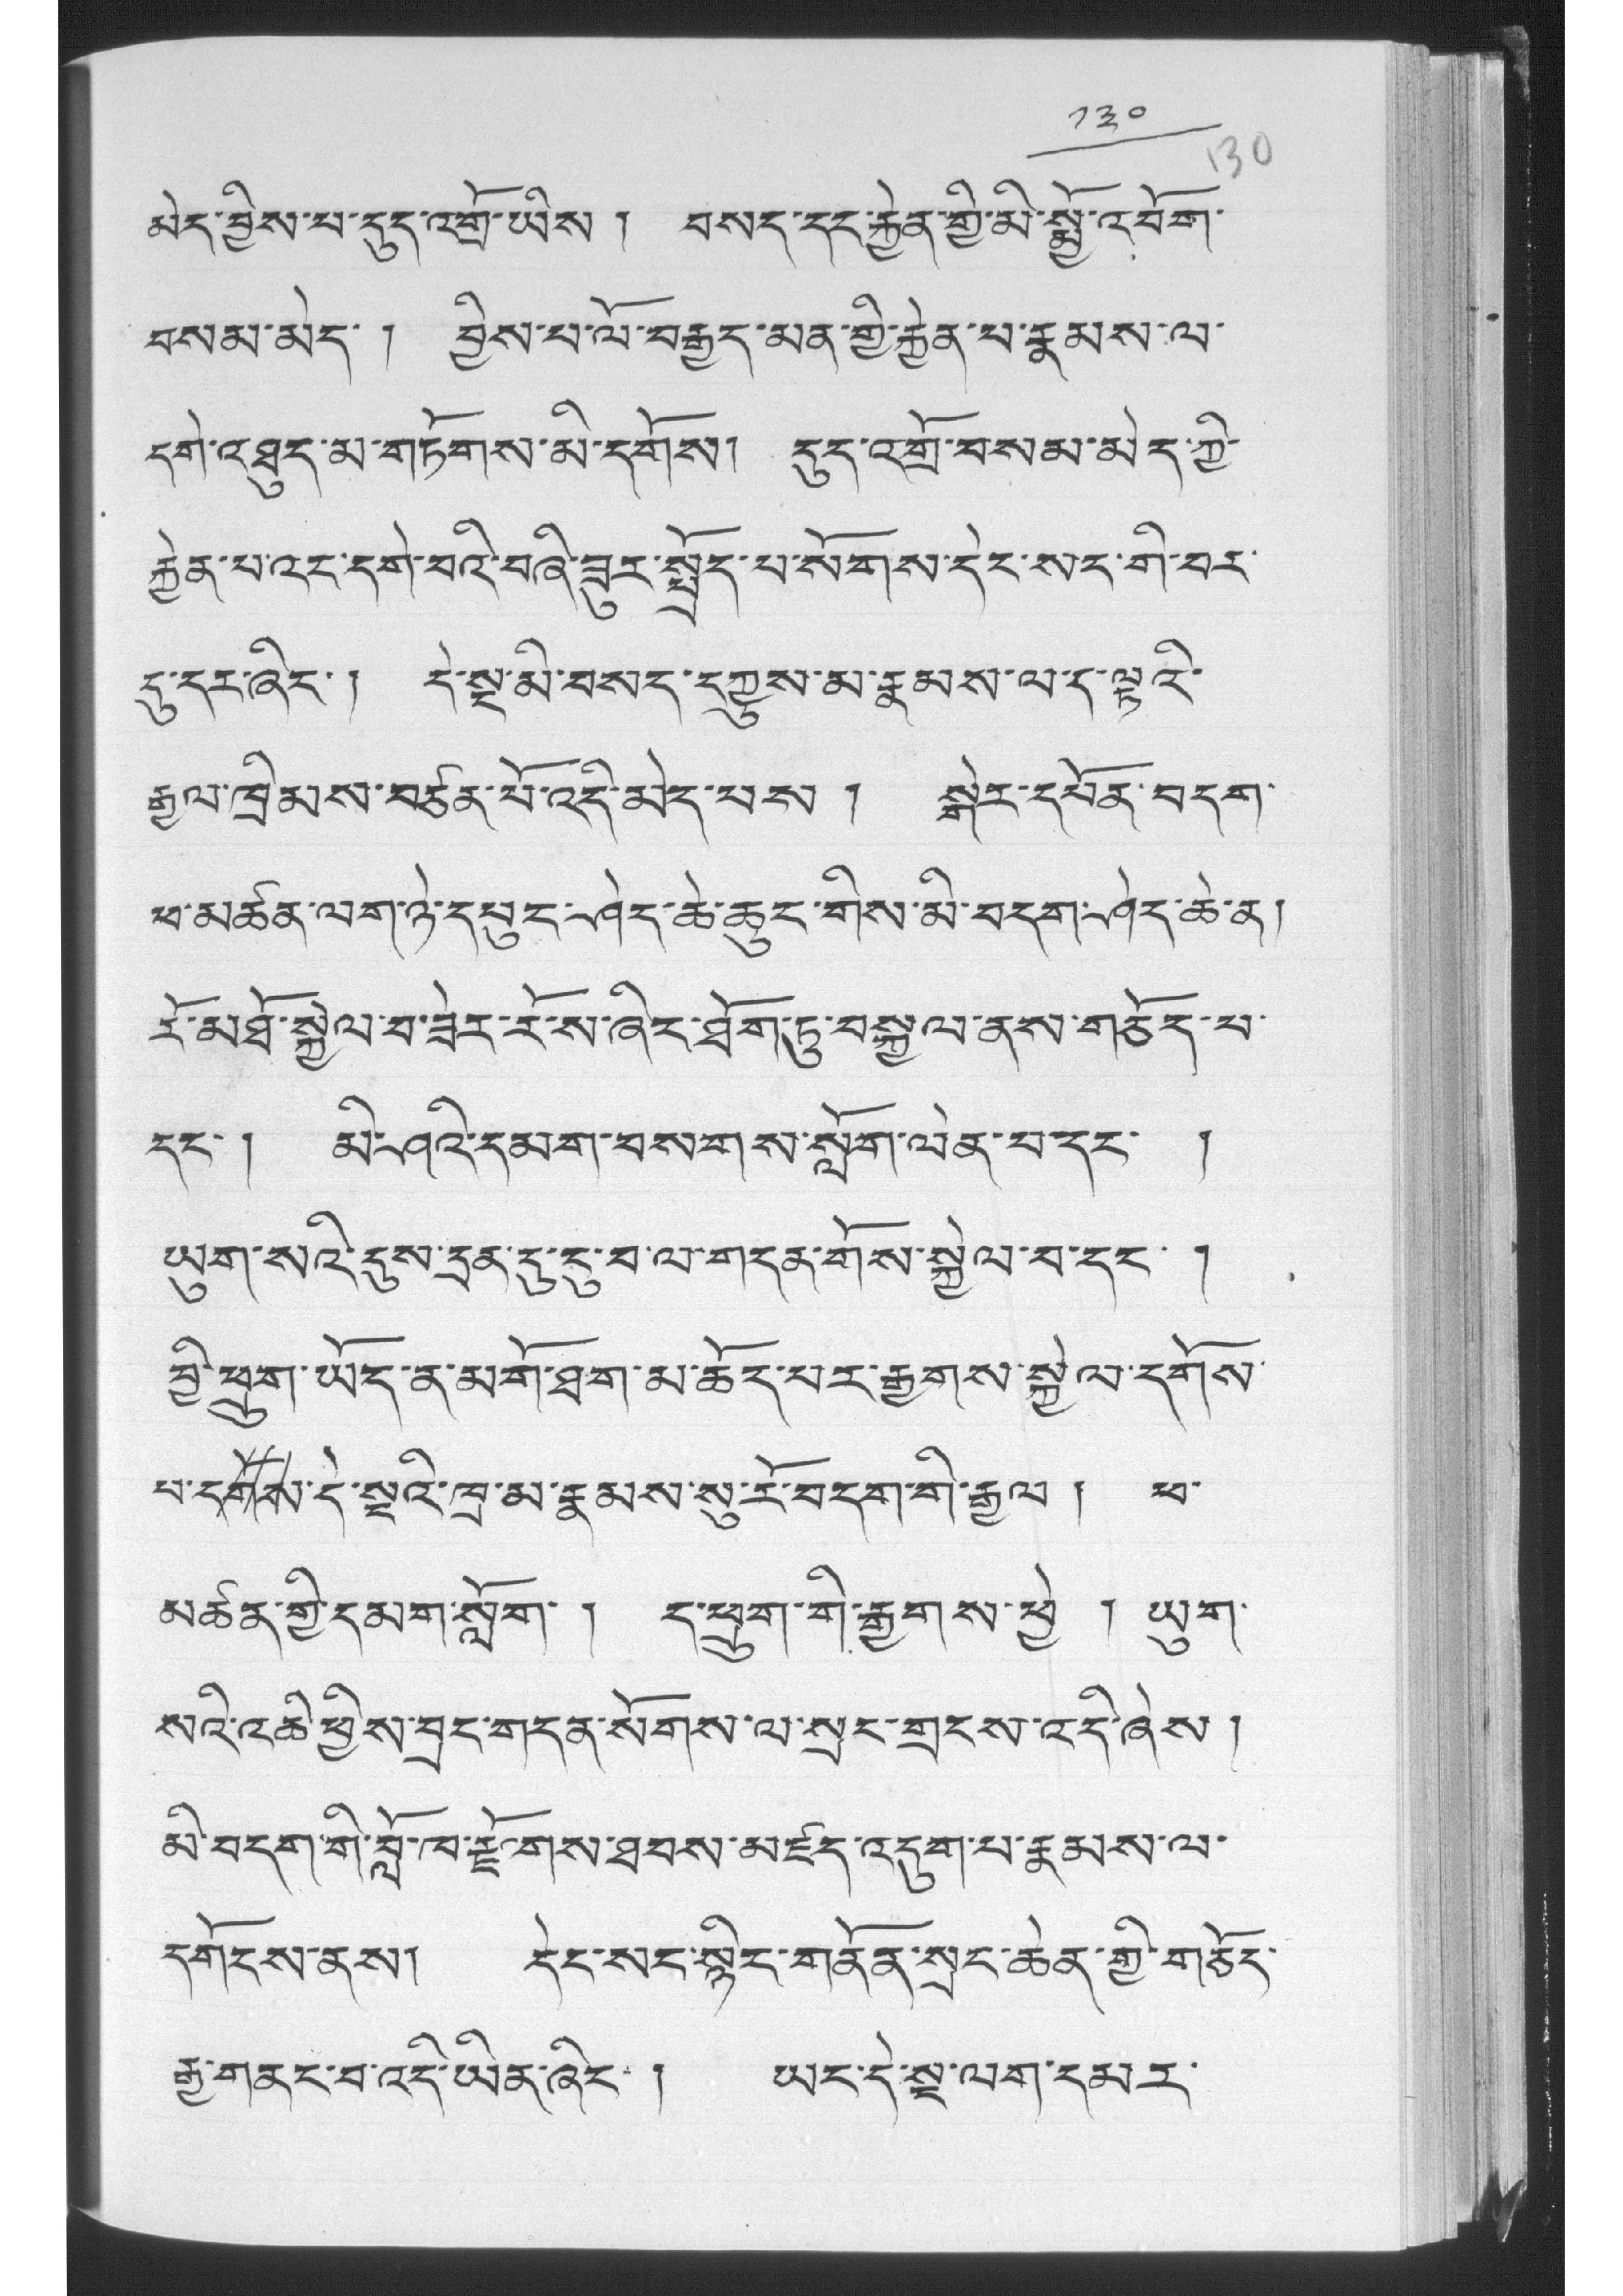༡༣༠
མེད་བྱིས་པ་དུད་འགྲོ་ཡིས ། བསད་དང་རྐྱེན་གྱི་མིསྨྱོ་འབོག་
བསམ་མེད་ ། བྱིས་པ་ལོ་བརྒྱད་མན་གྱི་རྐྱེན་པ་རྣམས་ལ་
དགེ་འཐུད་མ་གཏོགས་མི་དགོས། དུད་འགྲོ་བསམ་མེད་ཀྱི་
རྐྱེན་པ་འང་དགེ་བའི་བཞི་ཟུར་སྤྲོད་པ་སོགས་དེང་སང་གི་བར་
དུ་དར་ཞིང་། དེ་སྔ་མི་བསད་དཀྱུས་མ་རྣམས་ལ་ད་ལྟའི་
རྒྱལ་ཁྲིམས་བཙན་པོ་འདི་མེད་པས ། སྒེར་དཔོན་བདག་
ཕ་མཚན་ལག་ཉེ་དཔུང་ཤེད་ཆེ་ཆུང་གིས་མི་བདག་ཤེད་ཆེ་ན།
རོ་མཐོ་སྐྱེལ་བ་ཟེར་རོ་ས་ཞིང་ཐོག་ཏུ་བསྐྱལ་ནས་གཅོད་པ་
དང་། མི་ཤའི་དམག་བསགས་སློག་ལེན་པ་དང་ །
ཡུག་སའི་དུས་དྲན་དུ་ངུ་བ་ལ་གདན་གོས་སྐྱེལ་བ་དང་ །
བྱི་ཕྲུག་ཡོད་ན་མགོ་ཐག་མ་ཆོད་པར་རྒྱགས་སྐྱེལ་དགོས་
པ་དགོས་དེ་སྔའི་ཁྲ་མ་རྣམས་སུ་རོ་བདག་གི་རྒྱལ ། ཕ་
མཚན་གྱི་དམག་སློག་ ། ད་ཕྲུག་གི་རྒྱགས་ཕྱེ ། ཡུག་
སའི་འཆི་ཕྱིས་བྲང་གདན་སོགས་ལ་སྲང་གྲངས་འདི་ཞེས །
མི་བདག་གི་བློ་ཁ་རྫོགས་ཐབས་མཛད་འདུག་པ་རྣམས་ལ་
དགོངས་ནས། དེང་སང་སྙིང་གནོན་སྲང་ཆེན་གྱི་གཅོད་
རྒྱ་གནང་བ་འདི་ཡིན་ཞིང་ ། ཡང་དེ་སྔ་ལག་དམར་
